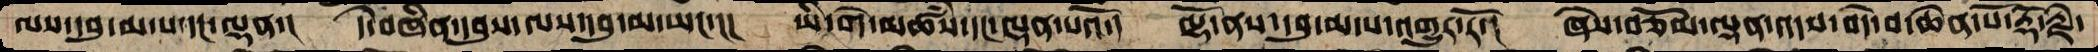ལས་དབུ་མ་པ་དང་ལྡན་།  དེ་བཞིན་དབུས་ལས་དབུ་མ་ཡང་།།།  ཡི་གེ་མཚཾས་དང་ལྡན་པའོ་།  ལྷོ་ནས་དབུ་མ་པ་འགྱུར་རོ་།  ཞེས་བཅོམ་ལྡན་འདས་བདེ་བ་ཆེན་པོ་རྡོ་རྗེ་
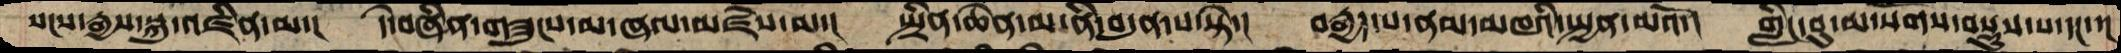སངས་རྒྱས་སྐུ་འཛིན་མ་།  དེ་བཞིན་གཟུངས་མ་ཞལ་མཛེས་མ་།  སྤྲིན་ཆེན་མ་ནི་བདུན་པ་སྟེ་།  བརྒྱད་པ་ནམ་མཁའི་སྤྱན་མའོ་།  གླིང་བུ་མ་སོགས་བསྡུས་པ་དང་་།
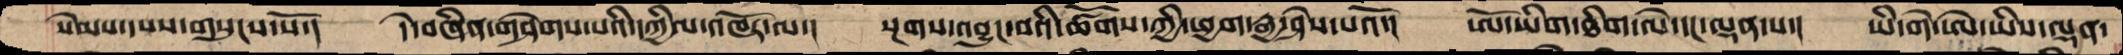སེམས་དཔས་གསུངས་སོ་།  དེ་བཞིན་གཤེགས་པའི་དཀྱིལ་འཁོར་ལ་།  སྔགས་འབྱུང་བའི་ཚོགས་ཀྱི་ཕྱག་རྒྱ་ཤེས་པའོ་།  ཨོ་ཡིག་ཐིག་ལེ་དང་ལྡན་པ་།  ཡི་གེ་ཨེ་ཡིས་ལྡན་
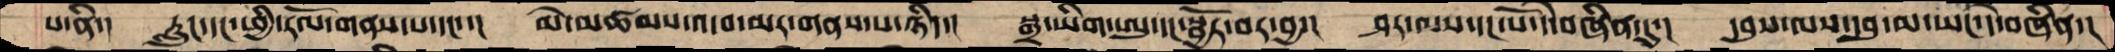པ་ནི་།  རླུང་དང་ཕྱི་རོལ་གནས་པ་དང་་།  མེ་མཚམས་འདབ་མར་གནས་པ་ཉིད་།  སྒྲ་ཡིག་ཨུ་དང་སྦྱོར་བར་བྱ་།  ཤར་ལས་དང་པོ་དེ་བཞིན་དུ་།  དབུས་ལས་དབུ་མ་ཡང་དེ་བཞིན་།
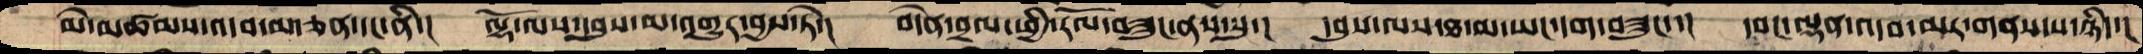མེ་མཚམས་འདབ་མ་ཅན་དང་ནི་།  ལྷོ་ལས་དབུས་མ་འགྱུར་བྱས་ཏེ་།  བདེན་བྲལ་ཕྱི་རོལ་བཟུང་ནས་སུ་།  དབུས་ལས་ཐ་མ་ཡང་དག་བཟུང་།  དབང་ལྡན་འདབ་མར་གནས་པ་ཉིད་།
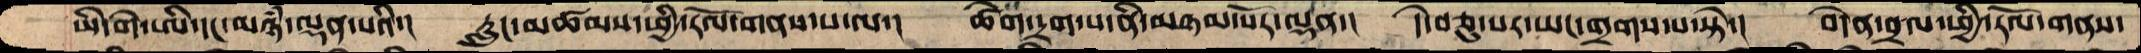ཡི་གེ་ཨི་དང་མཉཾ་ལྡན་པའི་།  རླུང་མཚམས་ཕྱི་རོལ་གནས་པ་ལ་།  ཚེག་དྲག་པ་ནི་མཉམ་པོར་ལྡན་།  དེ་བཅུ་པར་ཡང་གྲགས་པ་སྟེ་།  བདེན་བྲལ་ཕྱི་རོལ་གནས་
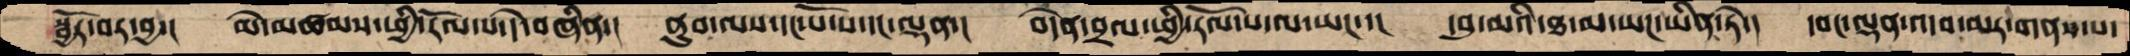སྦྱོར་བར་བྱ་།  མེ་མཚམས་ཕྱི་རོལ་པ་དེ་བཞིན་།  ནུབ་ལས་དང་པོ་པ་དང་ལྡན་།  བདེན་བྲལ་ཕྱི་རོལ་པ་ལ་ཡང་་།  དབུ་མའི་ཐ་མ་ཡང་ཡིན་ཏེ་།  དབང་ལྡན་འདབ་མར་གནས་པ་
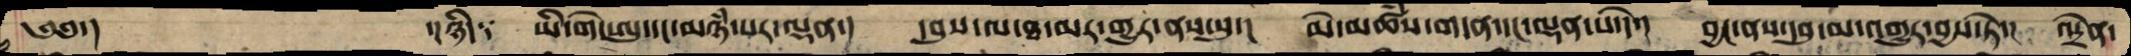༄༅་།     ་།ཉིད༑   ཡི་གེ་ཨུ་དང་མཉཾ་པར་ལྡན་།  དབུས་ལ་ཐ་མར་གྱུར་ནས་སུ་།  མེ་མཚཾས་གདན་དང་ལྡན་པ་དེ་།  བྱང་ནས་དབུ་མ་འགྱུར་བྱས་ཏེ་།  འདྲེན་
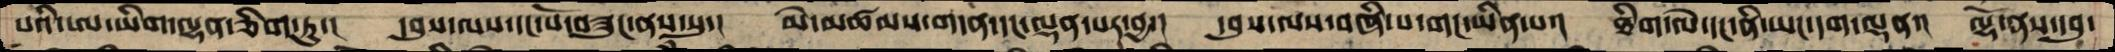པའི་ཨ་ཡིག་ལྷན་ཅིག་ཏུ་།  དབུས་ལས་དང་པོ་བཟུང་ནས་སུ་།  མེ་མཚམས་གདན་དང་ལྡན་པར་བྱ་།  དབུས་ལས་བཞི་པ་གང་ཡིན་པ་།  ཐིག་ལེ་དང་ནི་ཡང་དག་ལྡན་།  ལྷོ་ནས་དབུ་
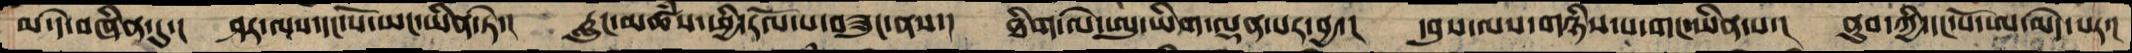མ་དེ་བཞིན་དུ་།  ཤར་ལས་དང་པོ་ཡང་ཡིན་ཏེ་།  རླུང་མཚཾས་ཕྱི་རོལ་པ་བཟུང་ནས་།  ཐིག་ལེ་ཨུ་ཡིག་ལྡན་པར་བྱ་།  དབུས་ལས་གཉིས་པ་གང་ཡིན་པ་།  ནུབ་ཀྱི་དང་པོ་ཨ་མེད་པར་།
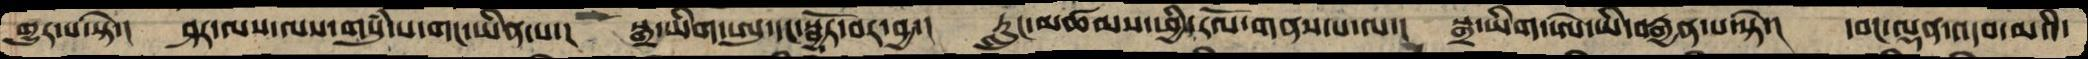གྱུར་པ་སྟེ་།  ཤར་ལས་ལས་གསུཾ་པ་གང་ཡིན་པ་།  སྒྲ་ཡིག་ཨུ་དང་སྦྱོར་བར་བྱ་།  རླུང་མཚམས་ཕྱི་རོལ་གནས་པ་ལ་།  སྒྲ་ཡིག་ཨེ་ཡི་བརྒྱན་པ་སྟེ་།  དབང་ལྡན་འདབ་མའི་
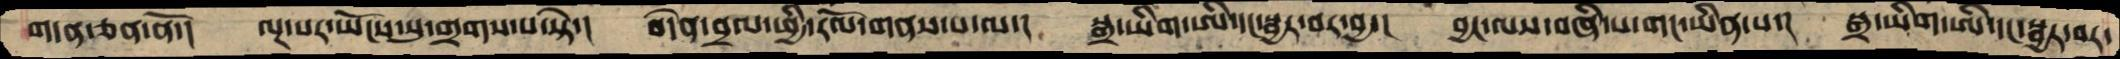གདན་ཅན་ནོ་།  ལྔ་པར་ཡོངས་སུ་གྲགས་པ་སྟེ་།  བདེན་བྲལ་ཕྱི་རོལ་གནས་པ་ལ་།  སྒྲ་ཡིག་ཨི་དང་སྦྱར་བར་བྱ་།  བྱང་ལས་བཞི་པ་གང་ཡིན་པ་།  སྒྲ་ཡིག་ཨི་དང་སྦྱར་བར་
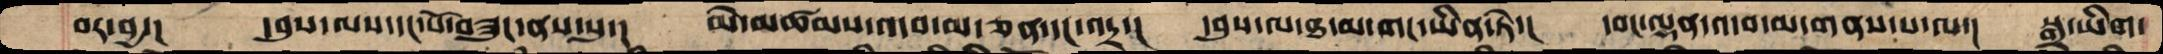བར་བྱ་།  དབུས་ལས་དང་པོ་བཟུང་ནས་སུ་།  མེ་མཚམས་འདབ་མ་ཅན་དང་འདྲ་།  དབུས་ལ་ཐ་མ་གང་ཡིན་ཏེ་།  དབང་ལྡན་འདབ་མ་གནས་པ་ལ་།  སྒྲ་ཡིག་
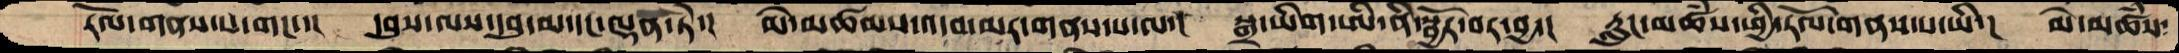རོལ་གནས་པ་གང་་།  དབུས་ལས་དབུ་མ་དང་ལྡན་ཏེ་།  མེ་མཚམས་འདབ་མར་གནས་པ་ལ་།  སྒྲ་ཡིག་ཨི་ནི་སྦྱོར་བར་བྱ་  རླུང་མཚཾས་ཕྱི་རོལ་གནས་པ་ཡི་།  མེ་མཚཾས་
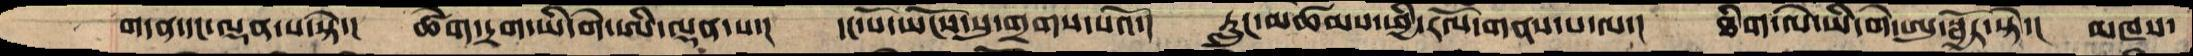གདན་དང་ལྡན་པ་སྟེ་།  ཚེག་དྲག་ཡི་གེ་ཨི་ལྡན་པ་།  དང་པོ་ཡོངས་སུ་གྲགས་པའོ་།  རླུང་མཚམས་ཕྱི་རོལ་གནས་པ་ལ་།  ཐིག་ལེ་ཡི་གེ་ཨུ་སྦྱོར་སྟེ་།  མཁས་
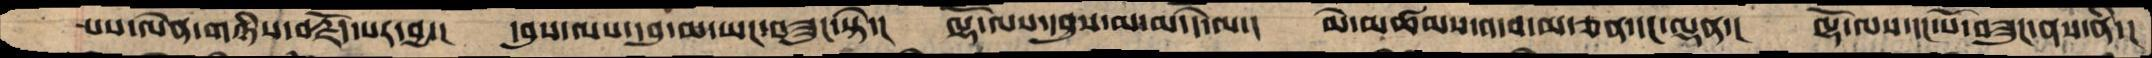པས་ལེན་གཉིས་བརྗོད་པར་བྱ་།  དབུས་ལས་དབུ་མ་ཡང་བཟུང་སྟེ་།  ལྷོ་ལས་དབུས་མ་མ་དེ་ལ་།  མེ་མཚམས་འདབ་མ་ཅན་དང་ལྡན་།  ལྷོ་ལས་དང་པོ་བཟུང་ནས་ནི་།
